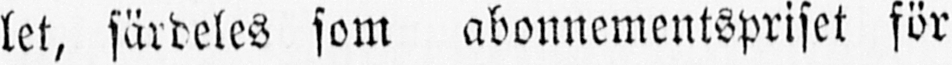let, särdeles som abonnementspriset för
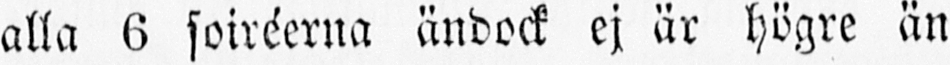alla 6 soiréerna ändock ej är högre än
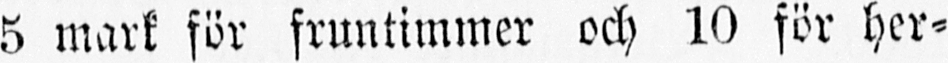5 mark för fruntimmer och 10 för her-
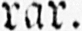rar.
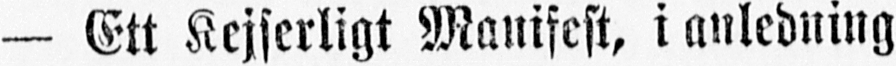— Ett Kejserligt Manifest, i anledning
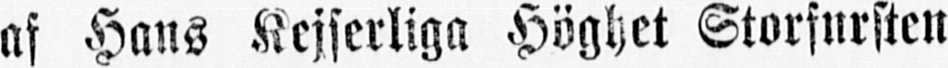af Hans Kejserliga Höghet Storfursten
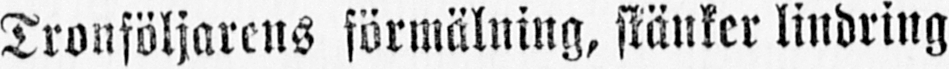Tronföljarens förmälning, skänker lindring
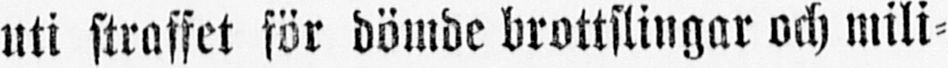uti straffet för dömde brottslingar och mili-
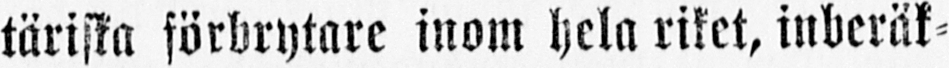täriska förbrytare inom hela riket, inberäk-
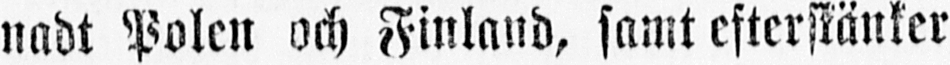nadt Polen och Finland, samt efterskänker
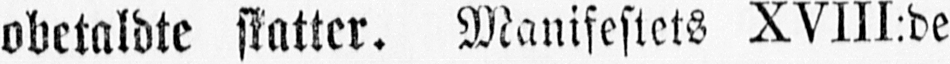obetaldte skatter. Manifestets XVIII:de
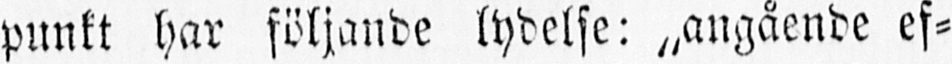punkt har följande lydelse: "angående ef-
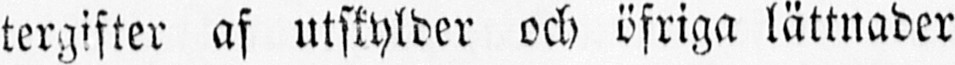tergifter af utskylder och öfriga lättnader
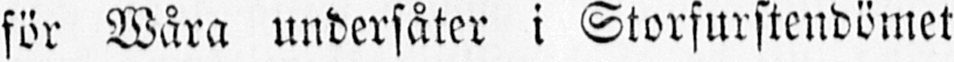för Wåra undersåter i Storfurstendömet
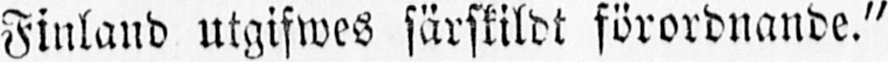Finland utgifwes särskildt förordnande."
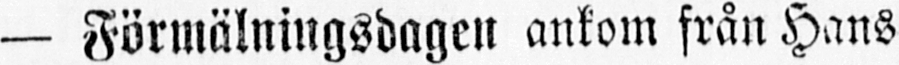— Förmälningsdagen ankom från Hans
